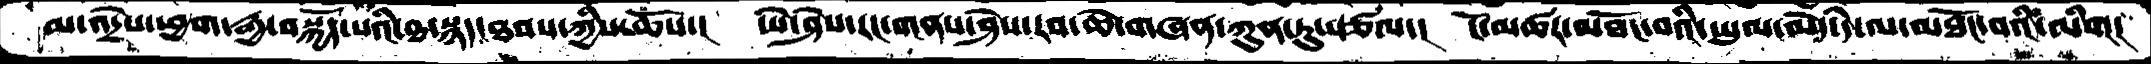མ་འདྲེས་ཕྱག་རྒྱ་བསྐྱོད་པའི་ཐ་སྙད་ཐབས་ཀྱིས་ཆོས་།  ཡེ་ཤེས་རང་གནས་ཤེས་རབ་ཆེ་གཞན་ཀུན་ཏུ་རྩལ་།  ངོ་མཚར་མཐོང་བའི་ཡུལ་མེད་དེ་ལ་མཐོང་བའི་མིག།
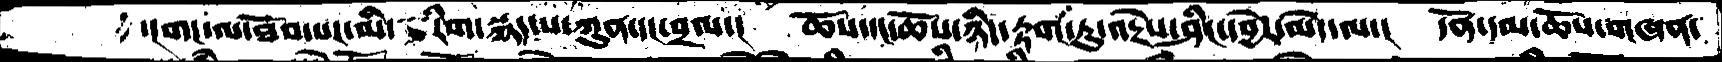་།གང་ལ་ཐོབ་པར་མི་རིག་སྙད་པ་ཀུན་དང་བྲལ་།  ཆོས་དང་ཆོས་ཉིད་རྟག་ཏུ་འདྲེས་ཤིང་དབྱེར་མེད་ལ་།  དོན་དམ་ཆོས་གཞན་
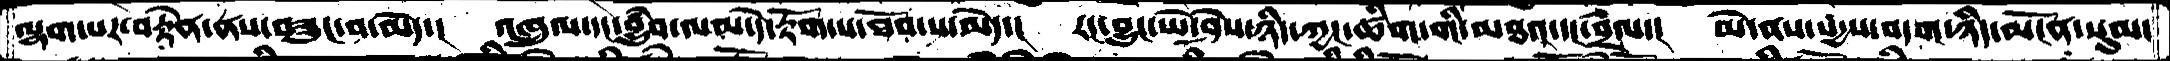ལྷག་པར་བརྟེན་ནས་བཟུང་བ་མེད་།  འཁྲུལ་དང་བྱུཾབ་ལམ་དེ་རྟོག་པ་ཐོབ་པ་མེད་།  རང་བྱུང་ཡེ་ཤེས་ཉིད་ཀྱང་ཚིག་གི་མཐའ་དང་བྲེལ་།  མེ་ནས་སདྱས་བདག་ཉིད་མངོན་སུམ་
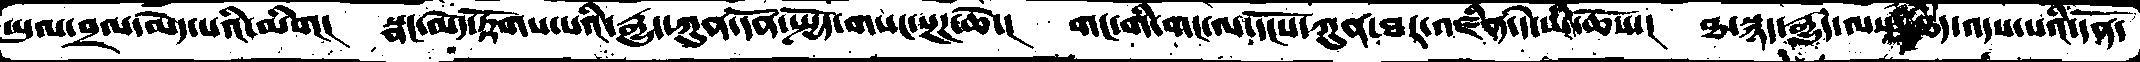ཡུལ་བྲལ་མེད་པའི་མིག།  སྣང་མེད་རྟོགས་པའི་རྒྱུད་ཀུན་དོན་སྤྱོད་གསང་སྔཌ་ཆེ་།  གང་གི་གང་ལ་དངོས་ཀུན་ཐར་འཛིན་དེ་ཡི་ཆོས་།  ཐ་སྙད་རྒྱུད་ལས་ཐདཾ་འདས་པའི་དོན་
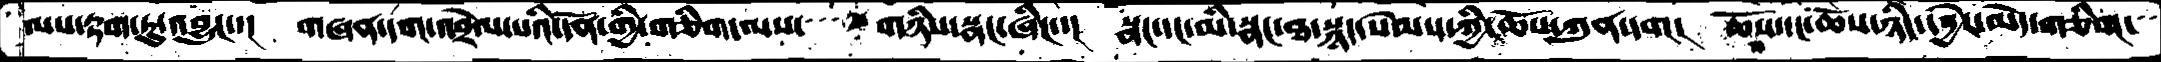ལས་རྟག་ཏུ་འབྱུང་།  གཞན་དག་འབྲེལ་པའི་དོན་གྱི་གཅིག་ལས་གཉིས་སྣང་ཞིང་།   སྣང་དང་མི་སྣང་ཐ་སྙད་སེམས་ཀྱི་ཆོས་ཀུན་དག།  ཆོས་དང་ཆོས་ཉིད་དབྱེར་མེད་གཅིག་
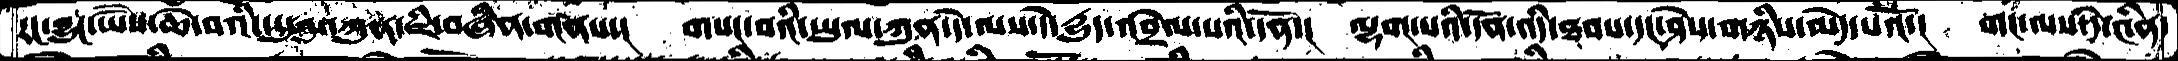རང་བྱུང་ཡཻས་ཆེ་བའི་ཡུལ་ཀུན་ཇི་བཞིན་གནས་།  གསང་བའི་ཡུལ་ཀུན་དེ་ལས་དེ་རྒྱུད་འབྲེལ་པའི་དོན་།  ལྷག་པའི་དོན་འདི་ཐབས་དང་ཤེས་གཉིས་མེད་པའོ་།  གང་ལས་དེ་༤ིན་
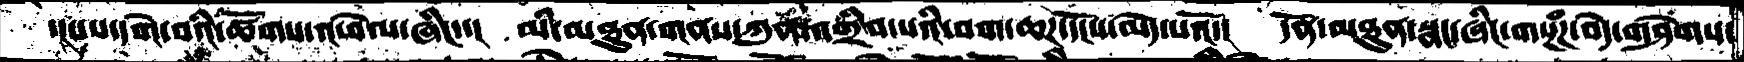་།པས་དགེ་བའི་ཚོགས་འཕེལ་ཞིང་་།  མི་མཐུན་གནས་ཀུན་འགྲིབ་པའི་བག་ཆཌ་དངོས་མེད་པའོ་།  དོན་མཐུན་སྣང་ཞིང་གསྔཾཌ་བདེ་གཤེགས་
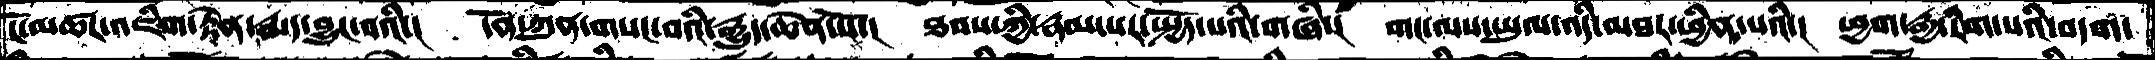ངོ་མཚར་འཇིག་རྟེན་རྨད་བྱུང་བའི་།  དོན་ཀུན་གསང་བའི་རྒྱུད་ཆེན་པོ་།  ཐབས་ཀྱི་རྣམ་པར་སྤྱོད་པའི་གཞི་།  གང་ལས་ཡུལ་འདི་མཐར་ཕྱིན་པའི་།  ཕྱག་རྒྱའི་རིག་པའི་བདག་
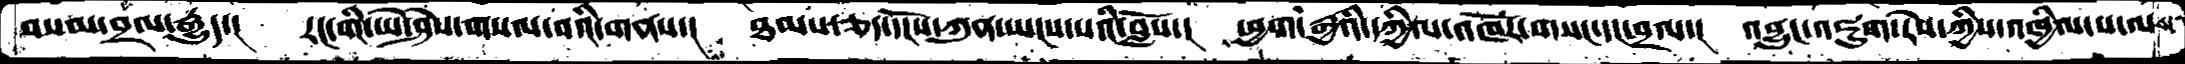བསམ་བྲལ་རྒྱུད་།  རང་གི་ཡེ་ཤེས་གསལ་བའི་གནས་།  ཐམས་ཅད་དངོས་ཀུན་ཡངས་པའི་བློས་།  ཕྱག་རྒྱའི་དཀྱིལ་འཁོར་གསང་དང་བྲལ་།  འབྱུང་འཇུག་རེས་ཀྱིས་འཁྱིལ་པ་ལས་
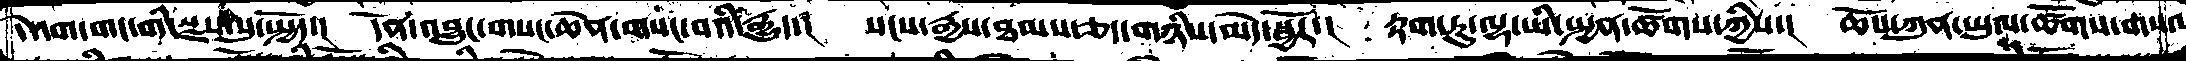དེ་དག་གང་གི་སྫས་སུ་སྤྱོད་།   དོན་འབྱུང་གསང་ཆེན་གསང་བའི་རྒྱུད་།  སངས་རྒྱས་ཐམས་ཅད་གཉིས་མེད་སྦྱོར་།   རྟག་ཏུ་ལྷ་ཡི་སྤྱན་ཚོགས་ཀྱིས་།  ཆོས་ཀུན་ཡུལ་ཚོགས་གསལ་
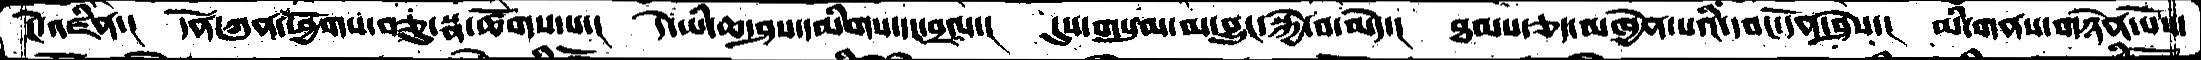ངེ་འཛིན་།  དོན་ཀུན་ཕྱོགས་བཅུ་སྣ་ཚོགས་པ་།  དེ་ཡི་ཆ་ཤས་དམིགས་དང་བྲལ་།  དུས་གསུམ་མ་བྱུང་སྐྱེ་བ་མེད་།  ཐམས་ཅད་མཁྱེན་པའི་དབང་དོན་ཤེས་།  མི་གནས་གཉེན་པོས་
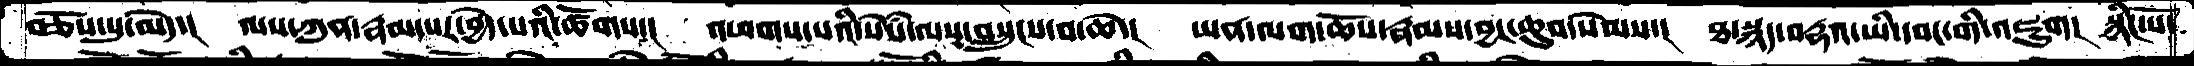བཅོས་སུ་མེད་།  ལས་ཀུན་རྣམ་པར་བྱེད་པའི་ཚོགས་།  འཕགས་པའི་སེཾས་ལས་བསྲུངས་བ་ཆེ་།  ཡན་ལག་ཆོས་རྣམས་བྱང་ཆུབ་སེམས་།  ཐ་སྙད་བརྡའ་ཡི་དབང་གི་འཇུག།  སྙིང་པོ་
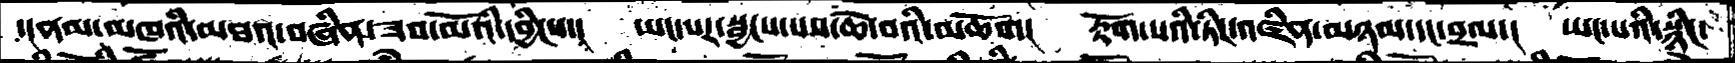་།ནམ་མཁའི་མཐའ་བཞིན་ཟབ་མོའི་དབྱིངས་།  ཡང་སར་སྦྱངས་པས་ཆེ་བའི་མཆོག།   རྟོག་པའི་ཏིང་འཛིན་མཉམ་དང་བྲལ་།   ཡང་པའི་སྙིང་
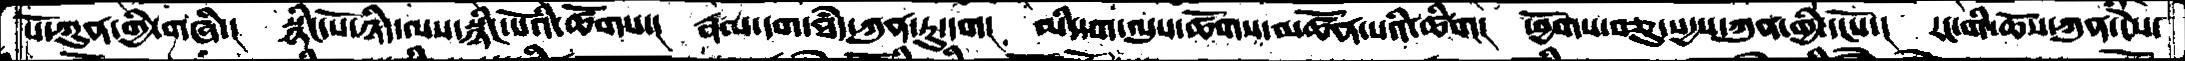པོ་ཀུན་གྱི་གཞི་།   སྙིང་པོ་ཉིད་ལས་སྙིང་པོའི་ཚོགས་།   རྣམ་དག་ཐཾད་ཀུན་ཏུ་དག།  མི་དག་ལུས་ཚོགས་མཚོན་པའི་ཚིག།  ཕྱོགས་བཅུ་སདྱས་ཀུན་གྱི་དངོས་།  རང་གི་ཆོས་ཀུན་ངེས་
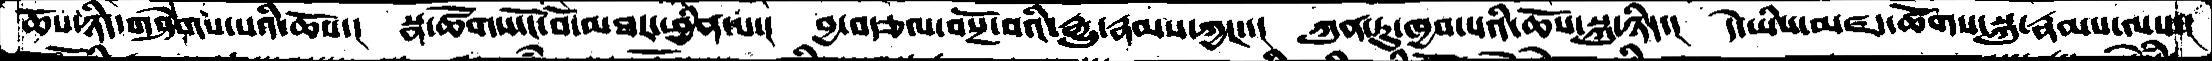ཆོས་ཉིད་གཤེགས་པའི་ཆོས་།  སྣ་ཚོགས་ངོ་བོ་མཐར་ཕྱིན་ལ་།  བྱ་བརྩལ་བསྔོ་བའི་རྒྱུ་རྣམས་ཀྱང་་།  ཀུན་ཏུ་ཁྱབ་པའི་ཆོས་སྐུ་ཉིད་།  དེ་ཡིས་མཛད་ཚོགས་སྐུ་རྣམས་ལས་།
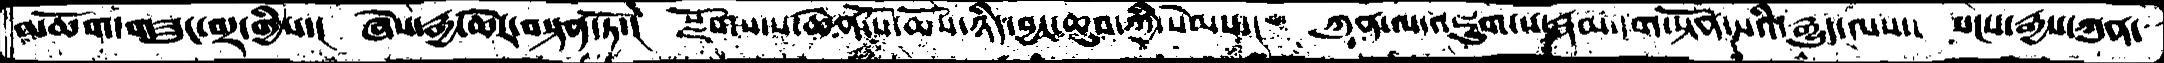མཆོག་གཟུང་བར་གྱིས་།  ཞེས་རྒྱ་ཆེར་བསྟན་ཏོ་།  སྫོགས་པ་ཆེན་པོ་ཆོས་ཉིད་བྱང་ཆུབ་ཀྱི་སེམས་།  ཀུན་ལ་འཇུག་པ་རྣམ་དག་སྟོན་པའི་རྒྱུད་ལས་།  སངས་རྒྱས་ཀུན་
